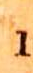1
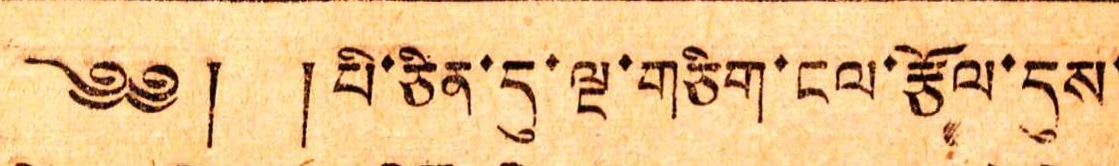༄༅། །པི་ཅིན་དུ་ལྔ་གཅིག་ངལ་རྩོལ་དུས་
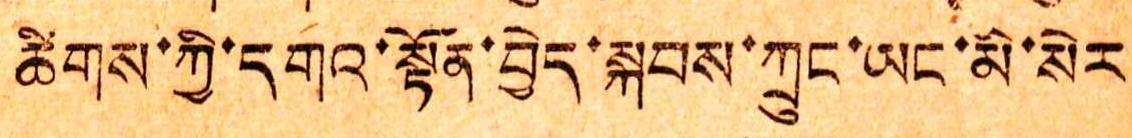ཚིགས་ཀྱི་དགའ་སྟོན་བྱེད་སྐབས་ཀྲུང་ཡང་མི་སེར
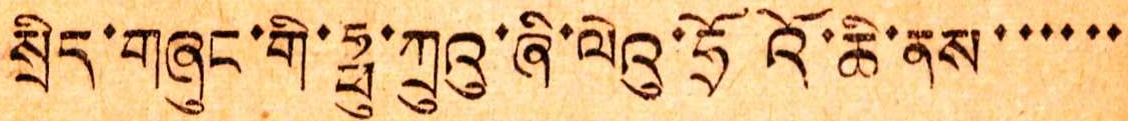སྲིད་གཞུང་གི་ཧྥུ་ཀྲུའུ་ཞི་ལེའུ་ཧྲོའོ་ཆི་ནས་་་་་་
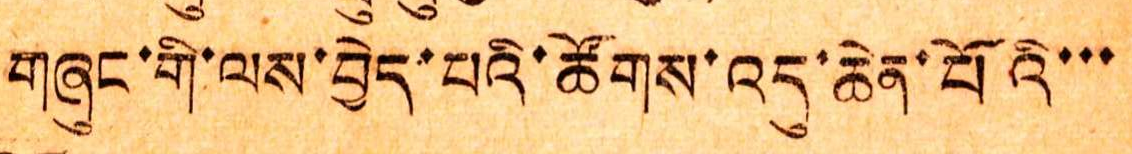གཞུང་གི་ལས་བྱེད་པའི་ཚོགས་འདུ་ཆེན་པོའི་་་
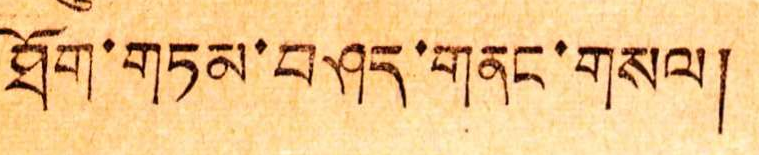ཐོག་གཏམ་བཤད་གནང་གསལ།
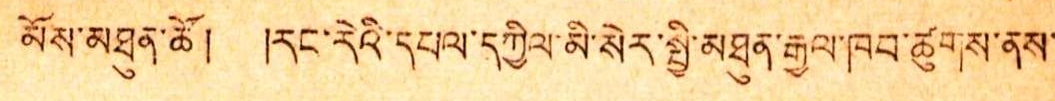མོས་མཐུན་ཚོ། །རང་རེའི་དཔལ་དཀྱིལ་མི་སེར་སྤྱི་མཐུན་རྒྱལ་ཁབ་ཚུགས་ནས་
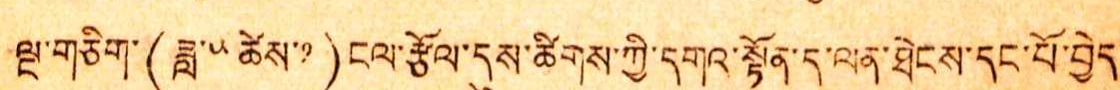ལྔ་གཅིག་( ཟླ་༥ཚེས་༡ )ངམ་རྩོམ་དུས་ཚིགས་ཀྱི་དགའ་སྟོན་ད་ལན་ཐེངས་དང་པོ་བྱེད་
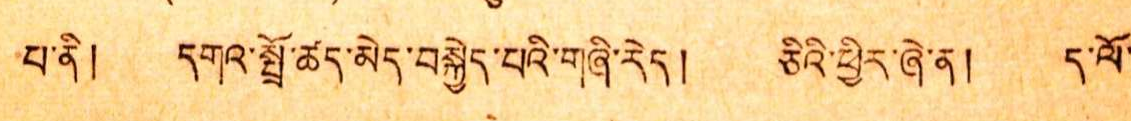པ་ནི། དགའ་སྤྲོ་ཚད་མེད་བསྐྱེད་པའི་གཞི་རིད། ཅིའི་ཕྱིར་ཞེ་ན། ད་ལོ་
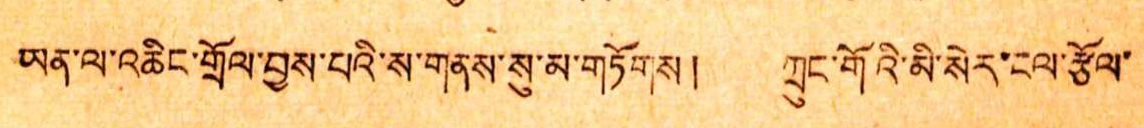ཡན་ལ་འཆིང་གྲོལ་བྱས་པའི་ས་གནས་སུ་མ་གཏོགས། ཀྲུང་གོའི་མི་སེར་ངལ་རྩོལ་
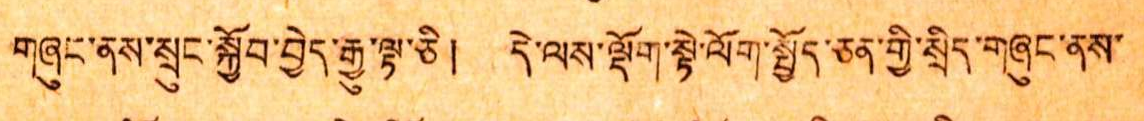གཞུང་ནས་སྲུང་སྐྱོབ་བྱེད་རྒྱུ་ལྟ་ཅི། དེ་ལས་ལྡོག་སྟེ་ལོག་སྤྱོད་ཅན་གྱི་སྲིད་གཞུང་ནས་
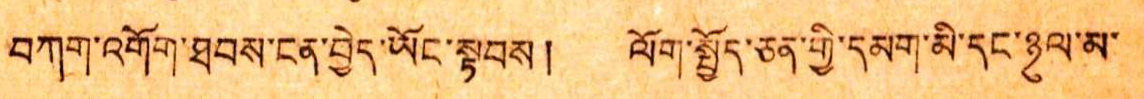བཀག་འགོག་ཐབས་ངན་བྱེད་ཡོང་སྟབས། ལོག་སྤྱོད་ཅན་གྱི་དམག་མི་རང་ཉུལ་མ་
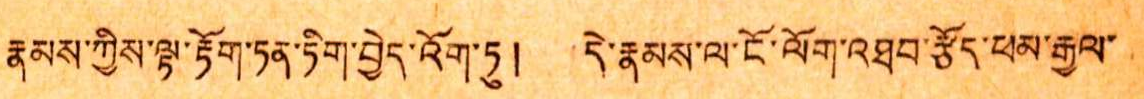རྣམས་ཀྱིས་ལྟ་རྟོག་ཏན་ཏིག་བྱེད་འོག་ཏུ། དེ་རྣམས་ལ་ངོ་ལོག་འཐབ་རྩོད་ཕམ་རྒྱལ་
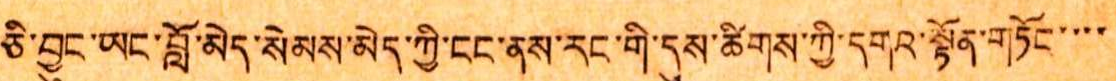ཅི་བྱུང་ཡང་བློ་མེད་སེམས་མེད་ཀྱི་ངང་ནས་རང་གི་དུས་ཚིགས་ཀྱི་དགའ་སྟོན་གཏོང་་་་
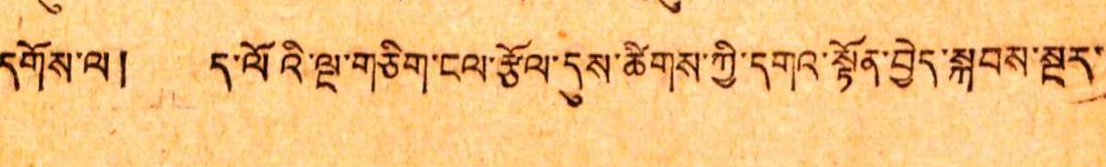དགོས་ལ། ད་ལོའི་ལྔ་གཅིག་ངལ་རྩོལ་དུས་ཚིགས་ཀྱི་དགའ་སྟོན་བྱེད་སྐབས་སྔར་
